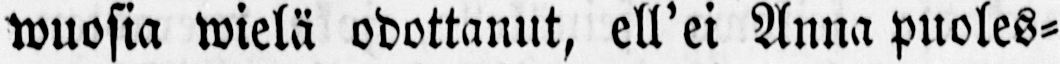wuosia wielä odottanut, ell'ei Anna puoles-
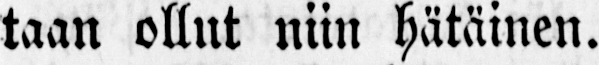taan ollut niin hätäinen.
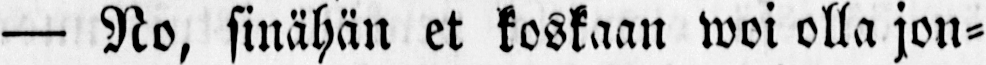— No, sinähän et koskaan woi olla jon-
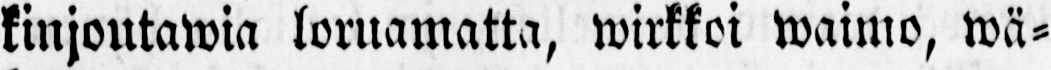kinjoutawia loruamatta, wirkkoi waimo, wä-
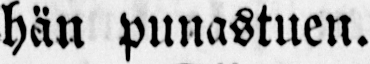hän punastuen.
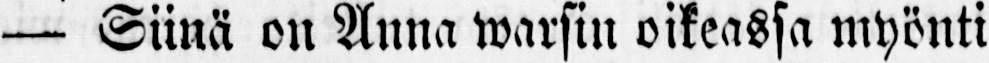— Siinä on Anna warsin oikeassa myönti
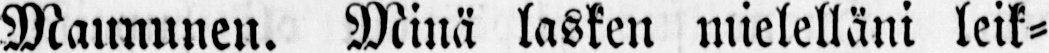Maununen. Minä lasken mielelläni leik-
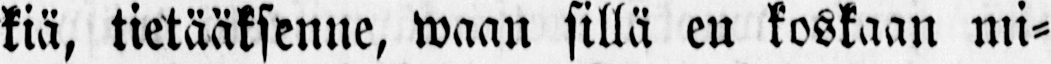kiä, tietääksenne, waan sillä en koskaan mi-
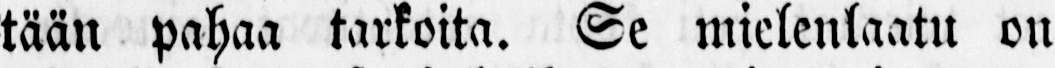tään pahaa tarkoita. Se mielenlaatu on
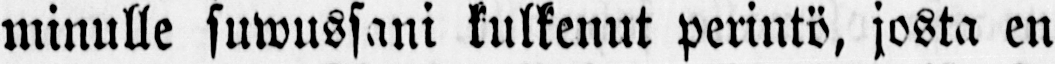minulle suwussani kulkenut perintö, josta en
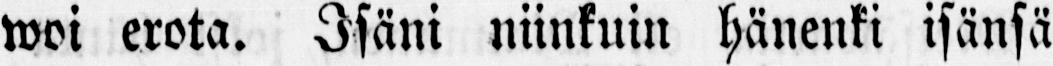woi erota. Isäni niinkuin hänenki isänsä
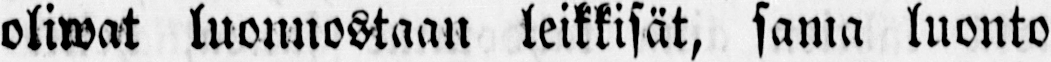oliwat luonnostaan leikkisät, sama luonto
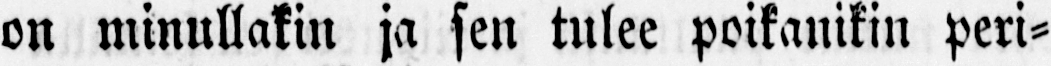on minullakin ja sen tulee poikanikin peri-
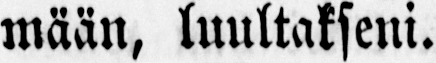mään, luultakseni.
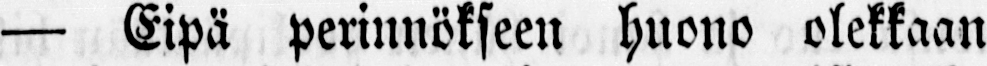— Eipä perinnökseen huono olekkaan
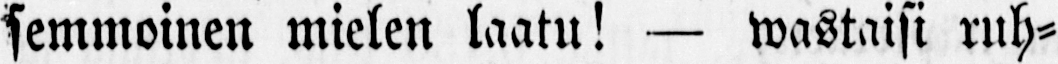semmoinen mielen laatu! — wastaisi ruh-
